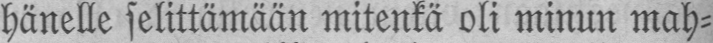hänelle selittämään mitenkä oli minun mah-
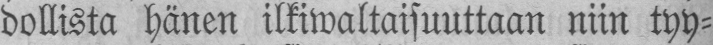dollista hänen ilkiwaltaisuuttaan niin tyy-
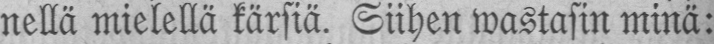nellä mielellä kärsiä. Siihen wastasin minä:
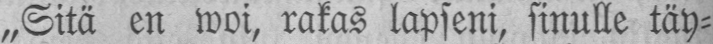„Sitä en woi, rakas lapseni, sinulle täy-
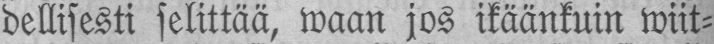dellisesti selittää, waan jos ikäänkuin wiit-
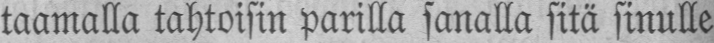taamalla tahtoisin parilla sanalla sitä sinulle
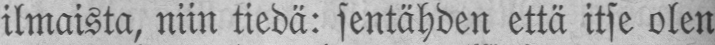ilmaista, niin tiedä: sentähden että itse olen
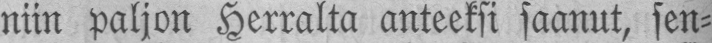niin paljon Herralta anteeksi saanut, sen-
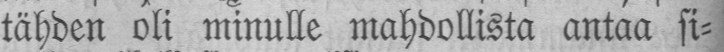tähden oli minulle mahdollista antaa si-
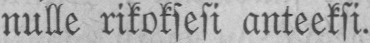nulle rikoksesi anteeksi.
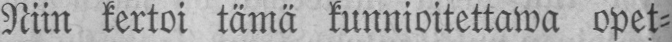Niin kertoi tämä kunnioitettawa opet-
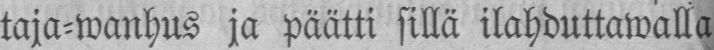taja-wanhus ja päätti sillä ilahduttawalla
